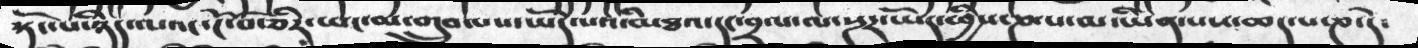སྟོང་པ་ཉིད་ལའང་ངོ་བོ་ཅིར་ཡང་མ་གྲུབ་པས་ཡོད་པའི་མཐའ་དང་བྲལ་ལ་སྔར་ཡོད་ཕྱིས་ཎ་པ་མ་ཡིན་པས་ཆད་པ་ཎ་དེ་
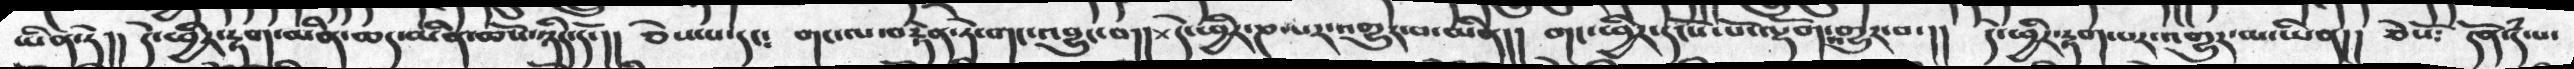ཡིན་ཏེ།།  དེ་ཕྱིར་རྟག་མིན་ཆད་མིན་ཆོས་ཉིད་དོ་།།  ཅེས་པ་དང༴  གང་ལ་བརྟེན་ཏེ་གང་འབྱུང་བ།།+དེ་ཕྱིར་ཎ་པར་འགྱུར་བ་ཡིན།།  གང་ཕྱིར་དངོས་པོ་ལྷོག་འགྱུར་བ་།།  དེ་ཕྱིར་རྟག་པར་འགྱུར་མ་ཡིན།། ཅེསོ༴  དོན་དཾ་པ་
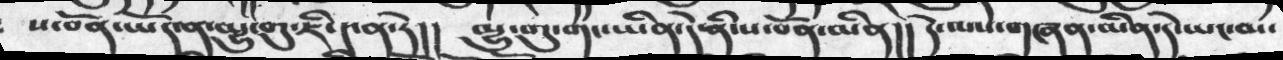ས་བོན་ཡོད་ན་མྱུ་གུ་ཇི་༤ན་དེ།།  མྱུ་གུ་གང་ཡིན་དེ་ནི་ས་བོན་མིན།།  དེ་ལས་གཞན་མིན་དེ་ཡང་མ་
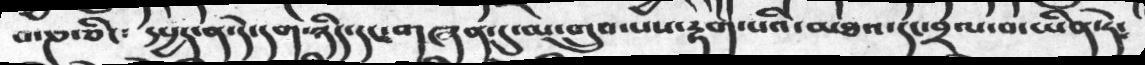བ་ཎ་ཅིང༴  དཔྱད་ན་དེ་ད་ག་ཉིད་དང་གཞན་དུ་མ་གྲུབ་པས་རྟག་པའི་མཐའ་དང་བྲལ་བ་ཡིན་དེ༴
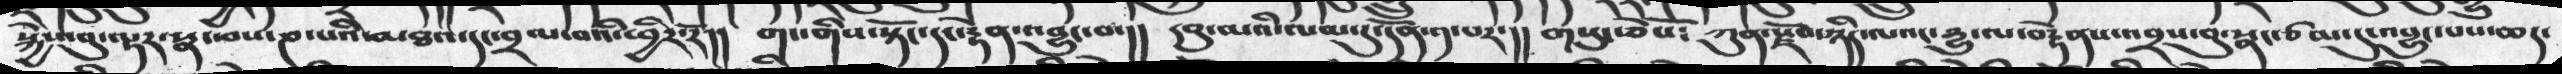སྐྱེས་བུ་ལྟར་སྣང་བས་ཎ་པའི་མཐའ་དང་བྲལ་བའི་ཕྱིར་རོ།།  གང་གིས་སྟོང་དང་རྟེན་འབྱུང་བ་།།  དབུ་མའི་ལམ་དུ་དོན་༡་པར་།།  གསུང་ཅེསོ༴  ཀུན་རྫོབ་ཉིད་ལའང་དྱུ་ལ་བརྟེནས་འབྲས་བུ་སྣང་ཙམ་དུ་འབྱུང་པས་ཆད་
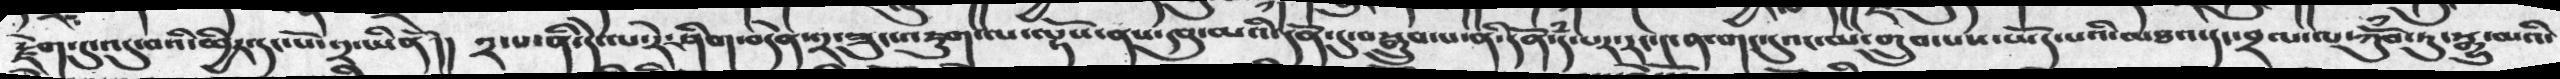རྫེག་དུ་འདུ་བའི་ཕྱིར་དང་པོ་༢་ཡིནོ།།  ༢་པ་ནི་དེ་ལ་རེ་ཤིག་བདེན་༢་ཟུངས་འཇུག་ལ་ལྟོས་ནས་དབུ་མའི་དོན་དུ་བསྒྲུབ་པ་ནི་དོན་དཾ་པར་རང་༤ན་གང་དུའང་མ་གྲུབ་པས་ཡོད་པའི་མཐའ་དང་བྲལ་ལ་ཀོུཾབ་ཏུ་སྒྱུ་མའི་
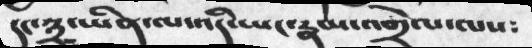དང་༣་ཡིན་ལ་འདི་ཡང་རྣམ་འགྲེལ་ལས༴
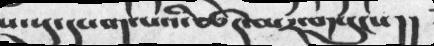ས་སུ་དཔག་པའི་ཚད་མར་གསུངས།།
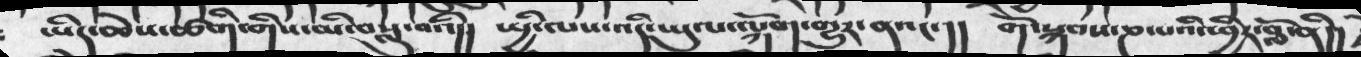ཡིད་ཆེས་ཚིགི་གིས་མི་བསླུ་བའི།།  སྤྱི་ལས་འདི་ཡུལ་ལྐོག་གྱུར་ནའང་།།  གོ་སྐབས་ཎ་པའི་ཕྱིར་བློ་ནི།།
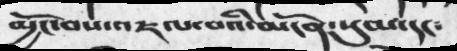མྱོང་བས་འཇལ་བའི་མངོན་སུམ་དང༴
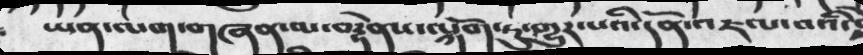ཡན་ལག་གཞན་མ་བརྟེནས་ལྐོག་ཏུ་གྱུར་པའི་དོན་འཇལ་བའི་
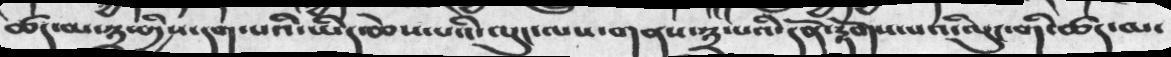ཚད་མ་༣་གྱིས་དག་པའི་ཡིད་ཆེས་པའི་ལུང་ལས་གནས་༣་པའི་དོན་རྟོགས་པའི་ལུང་གི་ཚད་མ་
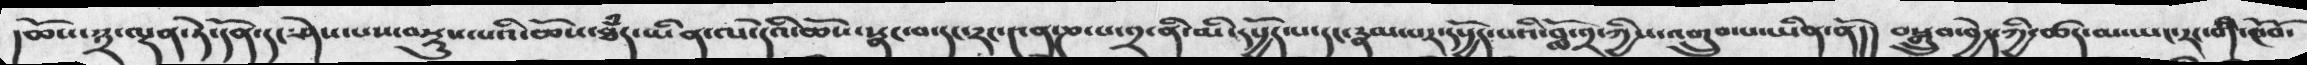།ཆོས་༣་ལྡན་ཏེ་དོན་དང་ཤེས་པས་བསྡུས་པའི་ཆོས་ཐཾད་ཡིན་ལ་དེའི་ཆོས་སྣང་བ་དང་རང་༤ན་ཎ་པ་༢་ནི་མི་དཔྱོད་པ་དང་རྣམ་པར་བློ་༢་ཀྱིས་འགྲུབ་པ་ཡིན་ནོ།།  བསྒྲུབ་བྱེད་ཀྱི་ཚད་མ་ཡང་རང་གི་ངོ་བོ་
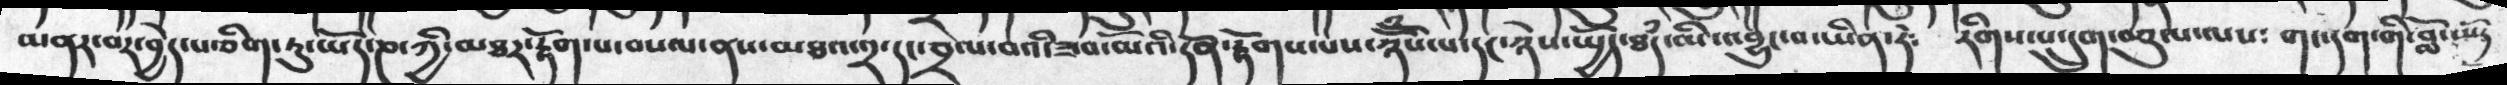མནར་བར་བྱེད་པ་ཅིག་ཏུ་ཡོད་ཎ་ཀྱི་མཐར་རྟོག་པ་བསལ་ནས་མཐའ་༢་དང་བྲལ་བའི་ཟབ་མོའི་དོན་རྟོགས་པས་ཉོོཾས་པ་དང་ཉེས་སྤྱོད་ཐཾད་མི་འབྱུང་བ་ཡིན་ཏེ༴  རིགས་པ་དྲུག་བཅུ་པ་ལས༴  གང་དག་གི་བློ་ཡོད
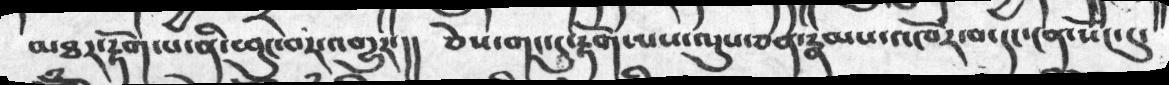མཐར་རྟོག་པ་ནི་ཕུང་བར་འགྱུར་།།  ཅེས་གང་དུ་རྟོག་པས་ལུས་ཅན་རྣམས་འཁོར་བ་དང་ངན་སོང་དུ་
